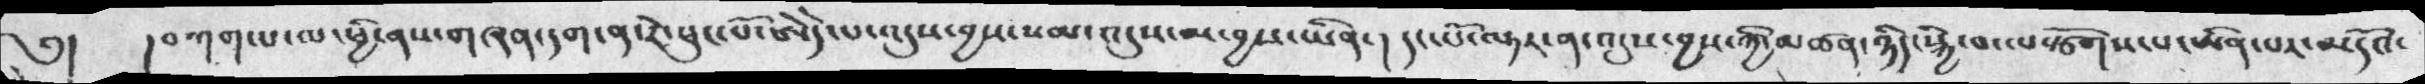༅།   ། བཀག་པ་ལ་ཕྱི་ནས་གཞན་དག་ན་རེ་ཕུང་པོ་ཨེདེ་པ་འདུས་བྱས་སམ་འདུས་མ་བྱས་ཡིན་།  དང་པོ་ལྟར་ན་འདུས་བྱས་ཀྱི་མཚན་ཉིད་སྐྱེ་བ་ལསྩོགས་པ་ཡིན་པར་མདོའ་
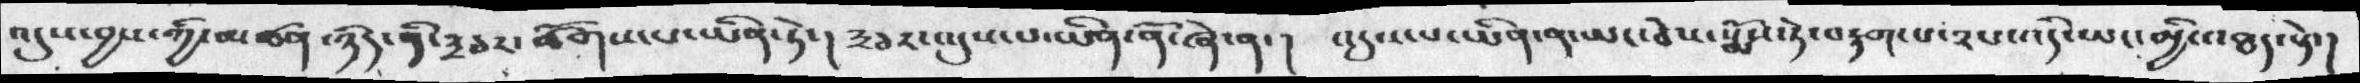འདུས་བྱས་ཀྱི་མཚན་ཉིད་ནི་༣ཅར་ཚོགས་པ་ཡིན་ཏེ་།  ༣ཅར་འདུས་པ་ཡིན་ནོ་ཞེ་ན་།   འདུས་པ་ཡིན་ན་ཡང་ཅེས་སྨོས་ཏེ་བརྟག་པ་༢པ་འདི་ཡང་མྱི་འཐད་སྟེ་།
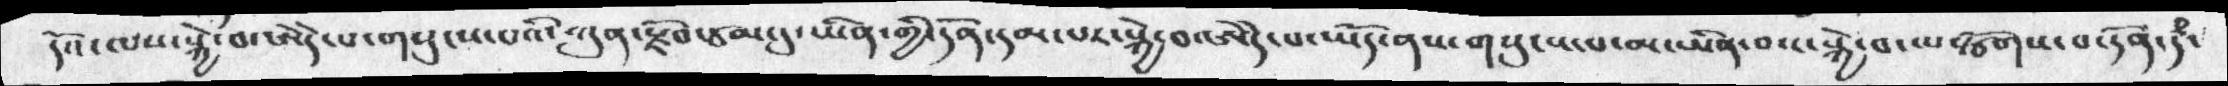དོའ་ལས་སྐྱེ་བ་ཨེདེ་པ་གསུངས་པའི་ཀུན་སྫོབ་ཙམ་དུ་ཡིན་གྱི་དོན་དམ་པར་སྐྱེ་བ་ཨེདེ་པ་ཡོད་ནས་གསུངས་པ་མ་ཡིན་བས་སྐྱེ་བ་ལསྩོགས་པ་དོན་ད་ཾ
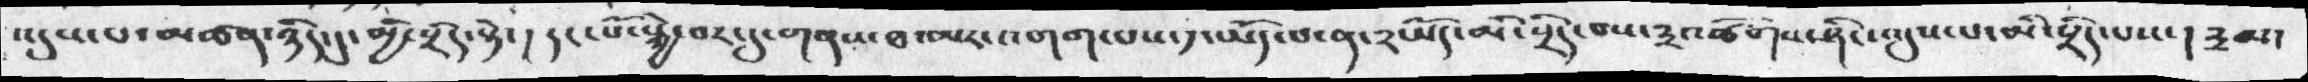འདུས་པ་མཚན་ཉིད་དུ་མྱི་སྲིད་སྟེ་།  དང་པོ་སྐྱེ་བར་དུ་གནས་ཐ་མར་འགག་པས་༡་ཡོད་པ་ན་༢ཡོད་མི་སྲིད་བས་༣འཚོགས་ཤིང་འདུས་པ་མི་སྲིད་པས་།  ༣མ་
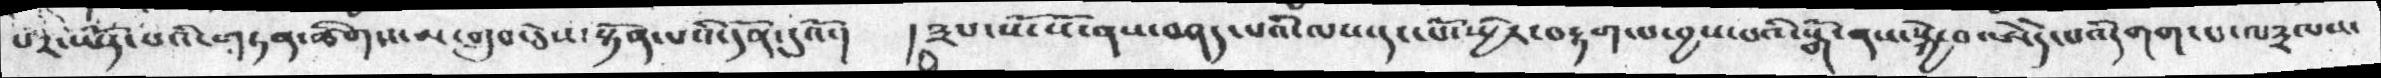པར་ཡོད་པའི་གཏན་ཚིགས་མ་གྲུབ་ཅེས་སྟོན་པའི་དོན་དུའོ་།   །༣པ་སོ་སོ་ནས་བཤད་པའི་ལས་དང་པོ་སྤྱིར་བརྟག་པ་བྱས་པའི་སྒོ་ནས་སྐྱེ་བ་ཨེདེ་པའི་དགག་པ་ལ༣ལས་
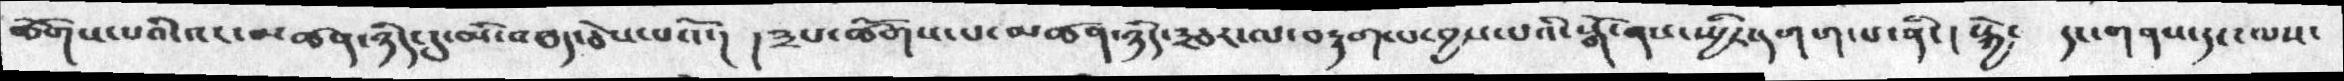ཚོགས་པའི་འང་མཚན་ཉིད་དུ་མི་འཐད་ཅེས་པའོ་།  ། ༣པ་ཚོགས་པ་མཚན་ཉིད་༣ཅར་ལ་བརྟག་པ་བྱས་པའི་སྒོ་ནས་སྤྱིར་དགག་པ་ནི་ ། སྐྱེ་  དང་གནས་དང་ལས་
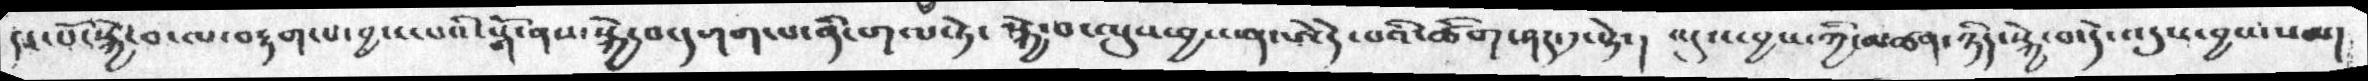དང་པོ་སྐྱེ་བ་ལ་བརྟག་པ་བྱས་པའི་སྒོ་ནས་སྐྱེ་བ་དགག་པ་ནི་གལ་ཏེ་  སྐྱེ་བ་འདུས་བྱས་ན་ཨེདེ་པའི་ཚིག་ཤར་༡་སྟེ་ ། འདུས་བྱས་ཀྱི་མཚན་ཉིད་སྐྱེ་བ་དེ་འདུས་བྱས་སམ།
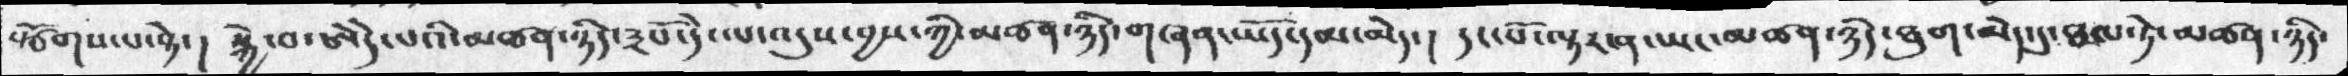སྩོགས་པ་སྟེ་།  སྐྱེ་བ་ཨེདེ་པའི་མཚན་ཉིད་༣པོ་དེ་ལ་འདུས་བྱས་ཀྱི་མཚན་ཉིད་གཞན་ཡོད་དམ་མེད་ ། དང་པོ་ལྟར་ན་ཡང་མཚན་ཉིད་ཐུག་མེད་དུ་ཐལ་ཏེ་མཚན་ཉིད་
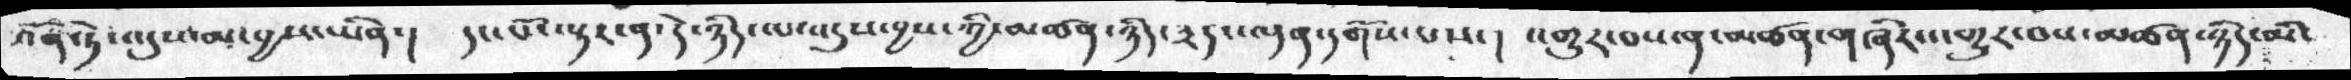འོན་ཏེ་འདུས་མ་བྱས་ཡིན་།  དང་པོ་ལྟར་ན་དེ་ཉིད་ལ་འདུས་བྱས་ཀྱི་མཚན་ཉིད་༣དང་ལྷན་དགོས་པས་།   འགྱུར་བས་ན་མཚན་གཞིར་འགྱུར་བས་མཚན་ཉིད་མི་
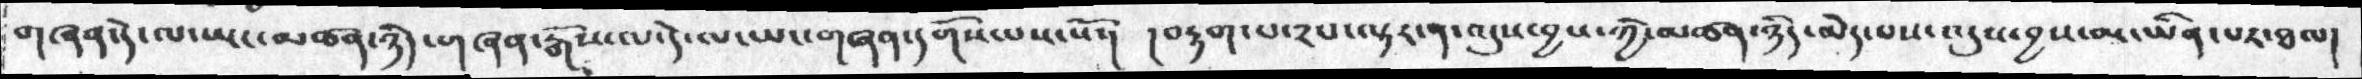གཞན་དེ་ལ་ཡང་མཚན་ཉིད་གཞན་རྒོས་ལ་དེ་ལ་ཡང་གཞན་དགོས་པས་སོ་།  ། བརྟག་པ་༢པ་ལྟར་ན་འདུས་བྱས་ཀྱི་མཚན་ཉིད་མེད་པས་འདུས་བྱས་མ་ཡིན་པར་ཐལ།
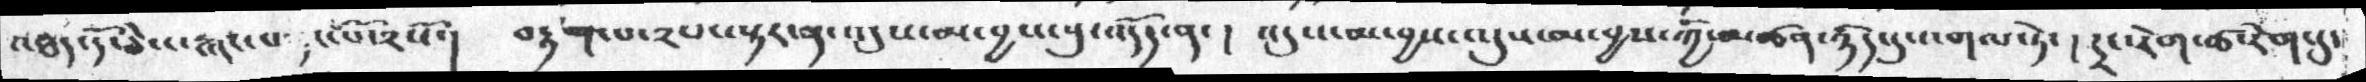འཐད་དོ་ཅེས་རྐང་པ་དང་པོ་༢སོ་།   བརྟག་པ་༢པ་ལྟར་ན་འདུས་མ་བྱས་སུ་འདོད་ན་ ། འདུས་མ་བྱས་འདུས་མ་བྱས་ཀྱི་མཚན་ཉིད་དུ་འགལ་ཏེ་ ། དྲང་རེག་ཚ་རེག་དུ་
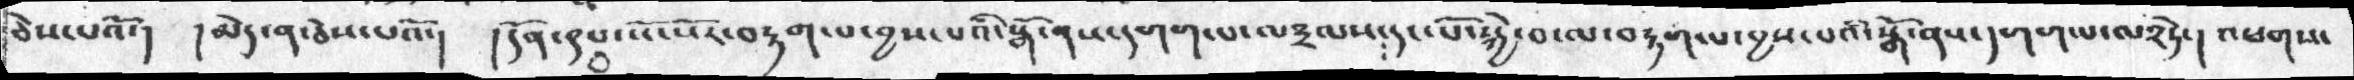ཅེས་པའོ་།  །མེད་ན་ཅེས་པའོ་།  ། དོན་༩པ་སོ་སོར་བརྟག་པ་བྱས་པའི་སྒོ་ནས་དགག་པ་ལ༣ལས་དང་པོ་སྐྱེ་བ་ལ་བརྟག་པ་བྱས་པའི་སྒོ་ནས་དགག་པ་ལ༢ཏེ་།  འཕགས་
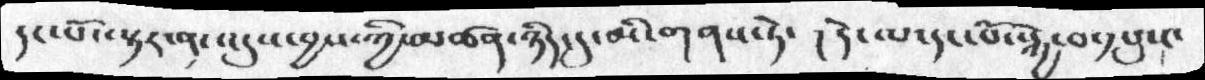དང་པོ་ལྟར་ན་འདུས་བྱས་ཀྱི་མཚན་ཉིད་དུ་མི་གནས་ཏེ་    ། དེ་ལ་དང་པོ་སྐྱེ་བ་༡པུས་
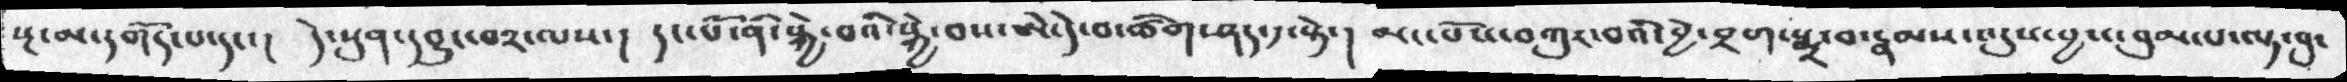སྔ་མ་དགོད་པ་དང་།  དེ་སུན་དབྱུང་བ༢་ལས་།  དང་པོ་ནི་སྐྱེ་བའི་སྐྱེ་བས་ཨེ་དེ་བ་ཚིག་ཤད་༡་སྟེ་།  མང་པོས་བཀུར་བའི་བྱེ་བྲག་སྨྲ་བ་རྣམས་འདུས་བྱས་བུམ་པ་ལྟ་བུ་
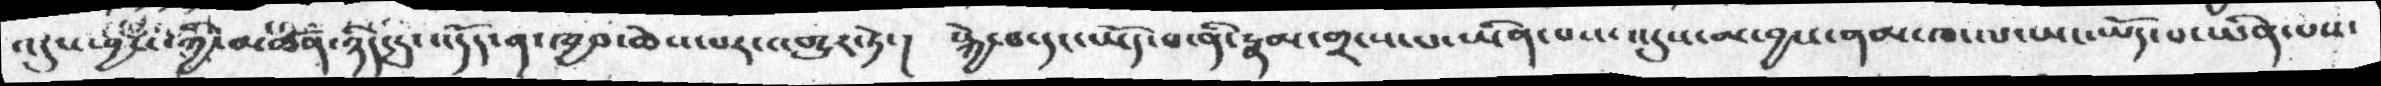འདུས་བྱས་ཀྱི་མཚན་ཉིད་དུ་འདོད་ན་ཁྱབ་ཆེས་པར་འགྱུར་ཏེ་།  སྐྱེ་བ་དང་ཡོད་པ་ནི་རྣམ་གྲངས་པ་ཡིན་པས་འདུས་མ་བྱས་ནམ་ཁ་ལ་ཡང་ཡོད་པ་ཡིན་པས་
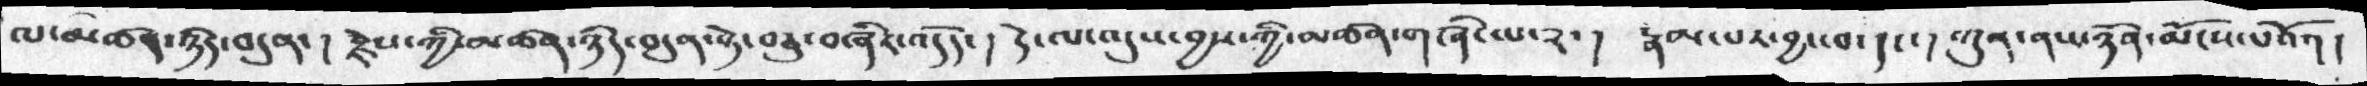ལ་མཚན་ཉིད་བདུན་། རྗེས་ཀྱི་མཚན་ཉིད་བདུན་སྟེ་བཅུ་བཞིར་འདོད་ །  དེ་ལ་འདུས་བྱས་ཀྱི་མཚན་གཞི་པ་༢་།  རྣམ་པར་བྱ་བ་དང་། ཀུན་ནས་ཉོན་མོངས་པའོ་། །
